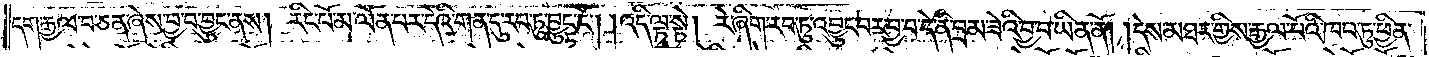དག་རྒྱལ་བ་ཅན་ཞེས་བྱ་བ་བྱུང་ནས། རིང་པོ་མ་ལོན་པར་དེའི་གན་དུ་རབ་ཏུ་བྱུང་ངོ༌། །འདི་ལྟ་སྟེ། རེ་ཞིག་རབ་ཏུ་འབྱུང་བར་བྱ་བ་དེ་ནི་བྲམ་ཟེའི་བྱ་བ་ཡིན་ནོ། །དེས་མཐར་གྱིས་རྒྱལ་པོའི་ཁབ་ཏུ་ཕྱིན་
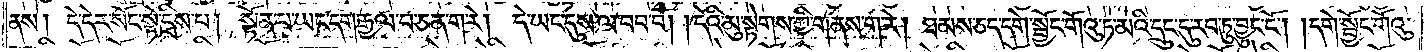ནས། དེ་དེར་སོང་སྟེ་དྲིས་པ། སྟོན་པ་ཡང་དག་རྒྱལ་བ་ཅན་ག་རེ། དེ་ཡང་དུས་ལ་བབ་བོ། །དེའི་མུ་སྟེགས་ཀྱི་གནས་ག་རེ། ཐམས་ཅད་དགེ་སྦྱོང་གོའུ་ཏ་མའི་དྲུང་དུ་རབ་ཏུ་བྱུང་ངོ༌། །དགེ་སྦྱོང་གོའུ་
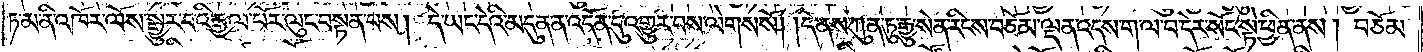ཏ་མ་ནི་འཁོར་ལོས་སྒྱུར་བའི་རྒྱལ་པོར་ལུང་བསྟན་པས། དེ་ཡང་དེའི་མདུན་ན་འདོན་དུ་འགྱུར་བས་ལེགས་སོ། །དེ་ནས་ཀུན་ཏུ་རྒྱུ་སེན་རིངས་བཅོམ་ལྡན་འདས་ག་ལ་བ་དེར་སོང་སྟེ་ཕྱིན་ནས། བཅོམ་
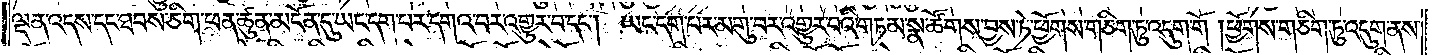ལྡན་འདས་དང་ཐབས་ཅིག་ཕན་ཚུན་མངོན་དུ་ཡང་དག་པར་དགའ་བར་འགྱུར་བ་དང༌། ཡང་དག་པར་མགུ་བར་འགྱུར་བའི་གཏམ་སྣ་ཚོགས་བྱས་ཏེ་ཕྱོགས་གཅིག་ཏུ་འདུག་གོ །ཕྱོགས་གཅིག་ཏུ་འདུག་ནས་
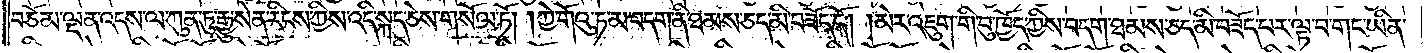བཅོམ་ལྡན་འདས་ལ་ཀུན་ཏུ་རྒྱུ་སེན་རིངས་ཀྱིས་འདི་སྐད་ཅེས་གསོལ་ཏོ། །ཀྱེ་གོའུ་ཏ་མ་བདག་ནི་ཐམས་ཅད་མི་བཟོད་དོ། །མེར་འཇུག་གི་བུ་ཁྱོད་ཀྱིས་བདག་ཐམས་ཅད་མི་བཟོད་པར་ལྟ་བ་གང་ཡིན་
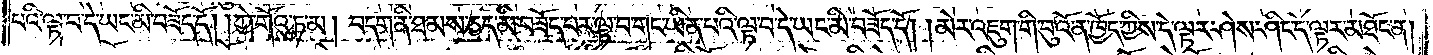པའི་ལྟ་བ་དེ་ཡང་མི་བཟོད་དོ། །ཀྱེ་གོའུ་ཏམ། བདག་ནི་ཐམས་ཅད་མི་བཟོད་པར་ལྟ་བ་གང་ཡིན་པའི་ལྟ་བ་དེ་ཡང་མི་བཟོད་དོ། །མེར་འཇུག་གི་བུ་འོ་ན་ཁྱོད་ཀྱིས་དེ་ལྟར་ཤེས་ཤིང་དེ་ལྟར་མཐོང་ན།
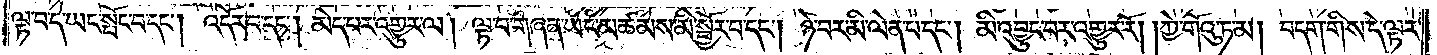ལྟ་བ་དེ་ཡང་སྤོང་བ་དང༌། འདོར་བ་དང༌། མེད་པར་འགྱུར་ལ། ལྟ་བ་གཞན་ཡང་མཚམས་མི་སྦྱོར་བ་དང༌། ཉེ་བར་མི་ལེན་པ་དང༌། མི་འབྱུང་བར་འགྱུར་རོ། །ཀྱེ་གོའུ་ཏ་མ། བདག་གིས་དེ་ལྟར་
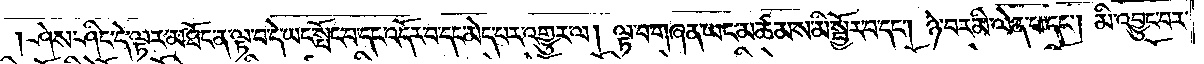ཤེས་ཤིང་དེ་ལྟར་མཐོང་ན་ལྟ་བ་དེ་ཡང་སྤོང་བ་དང་འདོར་བ་དང་མེད་པར་འགྱུར་ལ། ལྟ་བ་གཞན་ཡང་མཚམས་མི་སྦྱོར་བ་དང༌། ཉེ་བར་མི་ལེན་པ་དང༌། མི་འབྱུང་བར་
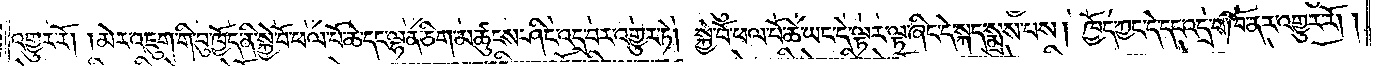འགྱུར་རོ། །མེར་འཇུག་གི་བུ་ཁྱོད་ནི་སྐྱེ་བོ་ཕལ་པོ་ཆེ་དང་ལྷན་ཅིག་མཚུངས་ཤིང་འདྲ་བར་འགྱུར་ཏེ། སྐྱེ་བོ་ཕལ་པོ་ཆེ་ཡང་དེ་ལྟར་ལྟ་ཞིང་དེ་སྐད་སྨྲས་པས། ཁྱོད་ཀྱང་དེ་དང་འདྲ་བ་ཁོ་ནར་འགྱུར་རོ། །
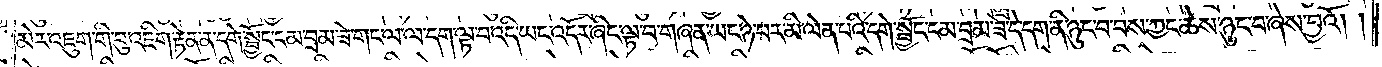མེར་འཇུག་གི་བུ་འཇིག་རྟེན་ན་དགེ་སྦྱོང་ངམ་བྲམ་ཟེ་གང་ལ་ལ་དག་ལྟ་བ་འདི་ཡང་འདོར་ཞིང་ལྟ་བ་གཞན་ཡང་ཉེ་བར་མི་ལེན་པའི་དགེ་སྦྱོང་ངམ་བྲམ་ཟེ་དེ་དག་ནི་ཉུང་བ་བས་ཀྱང་ཆེས་ཉུང་བ་ཞེས་བྱའོ། །
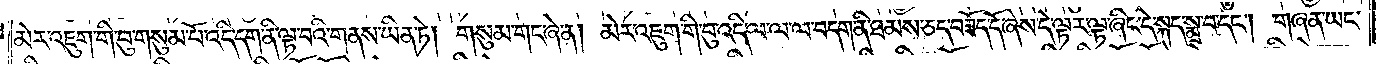མེར་འཇུག་གི་བུ་གསུམ་པོ་འདི་དག་ནི་ལྟ་བའི་གནས་ཡིན་ཏེ། གསུམ་གང་ཞེ་ན། མེར་འཇུག་གི་བུ་འདི་ལ་ལ་ལ་བདག་ནི་ཐམས་ཅད་བཟོད་དོ་ཞེས་དེ་ལྟར་ལྟ་ཞིང་དེ་སྐད་སྨྲ་བ་དང༌། གཞན་ཡང་
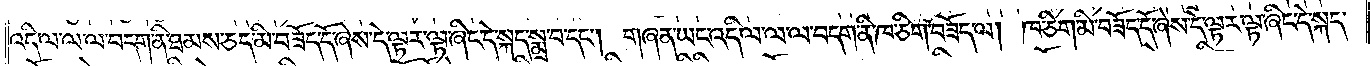འདི་ལ་ལ་ལ་བདག་ནི་ཐམས་ཅད་མི་བཟོད་དོ་ཞེས་དེ་ལྟར་ལྟ་ཞིང་དེ་སྐད་སྨྲ་བ་དང༌། གཞན་ཡང་འདི་ལ་ལ་ལ་བདག་ནི་ཁ་ཅིག་བཟོད་ལ། ཁ་ཅིག་མི་བཟོད་དོ་ཞེས་དེ་ལྟར་ལྟ་ཞིང་དེ་སྐད་
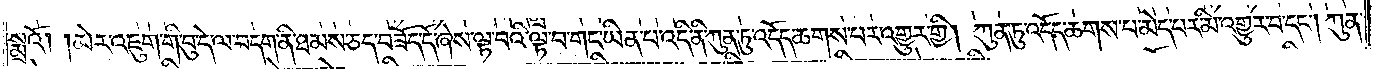སྨྲའོ། །མེར་འཇུག་གི་བུ་དེ་ལ་བདག་ནི་ཐམས་ཅད་བཟོད་དོ་ཞེས་ལྟ་བའི་ལྟ་བ་གང་ཡིན་པ་འདི་ནི་ཀུན་ཏུ་འདོད་ཆགས་པར་འགྱུར་གྱི། ཀུན་ཏུ་འདོད་ཆགས་པ་མེད་པར་མི་འགྱུར་བ་དང༌། ཀུན་
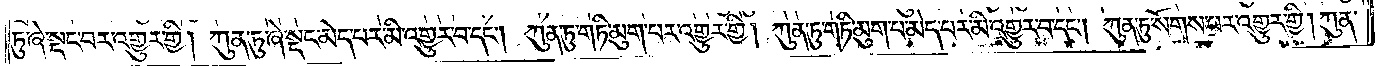ཏུ་ཞེ་སྡང་བར་འགྱུར་གྱི། ཀུན་ཏུ་ཞེ་སྡང་མེད་པར་མི་འགྱུར་བ་དང༌། ཀུན་ཏུ་གཏི་མུག་པར་འགྱུར་གྱི། ཀུན་ཏུ་གཏི་མུག་པ་མེད་པར་མི་འགྱུར་བ་དང༌། ཀུན་ཏུ་སོགས་པར་འགྱུར་གྱི། ཀུན་
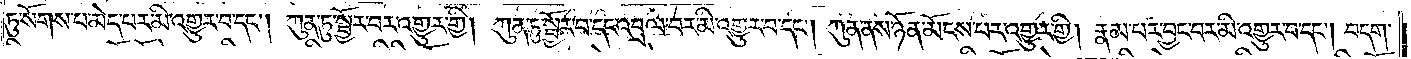ཏུ་སོགས་པ་མེད་པར་མི་འགྱུར་བ་དང༌། ཀུན་ཏུ་སྦྱོར་བར་འགྱུར་གྱི། ཀུན་ཏུ་སྦྱོར་བ་དང་འབྲལ་བར་མི་འགྱུར་བ་དང༌། ཀུན་ནས་ཉོན་མོངས་པར་འགྱུར་གྱི། རྣམ་པར་བྱང་བར་མི་འགྱུར་བ་དང༌། བདག་
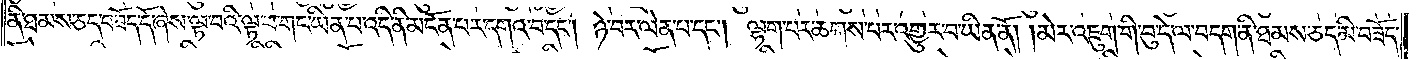ནི་ཐམས་ཅད་བཟོད་དོ་ཞེས་ལྟ་བའི་ལྟ་བ་གང་ཡིན་པ་འདི་ནི་མངོན་པར་དགའ་བ་དང༌། ཉེ་བར་ལེན་པ་དང༌། ལྷག་པར་ཆགས་པར་འགྱུར་བ་ཡིན་ནོ། །མེར་འཇུག་གི་བུ་དེ་ལ་བདག་ནི་ཐམས་ཅད་མི་བཟོད་
